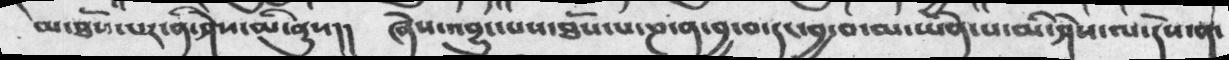མ་ཐོས་པར་ནི་ཤེས་མི་ནུས།།      ཞེས་འབྱུང་པས་ཐོས་པ་ཎ་ན་བྱ་བ་དང་བྱ་བ་མ་ཡིན་པ་མི་ཤེས་ལ་དེས་ན་
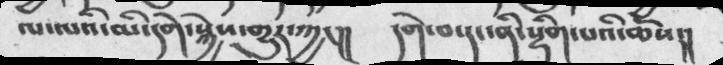ལ་ལའི་མི་དགེ་སྐྱེས་གྱུར་ཀྱང།།       དགེ་བ་དང་ནི་སྡིག་པའི་ཆོས།།
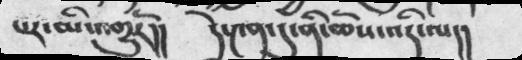པར་མི་འགྱུརོ།།    དེ་༤ན་དུ་ཆོས་འདི་ལ།།
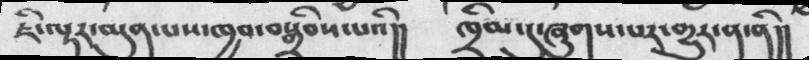ཇི་ལྟར་མུན་པས་ཁྱབ་བསྒྲིབས་པའི།།    ཁྲིམ་དུ་ཞུགས་པར་གྱུར་ན་ནི།།
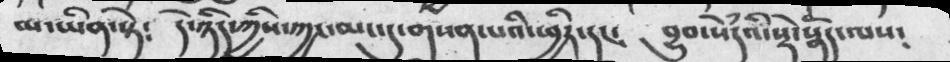མ་ཡིན་སྟེ༴   དེ་ཉིད་ཀྱིས་ཀྱང་མང་དུ་གསན་པའི་ཕྱིར་དང༴      བྱུབ་སེཾདའི་སྡེ་སྣོད་ལས༴
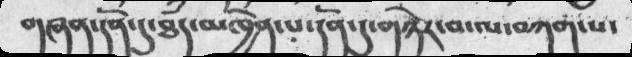གཞན་དོན་དུ་ཐཾད་མཁྱེན་པ་དོན་དུ་གཉེར་བ་བཀག་པཔ་
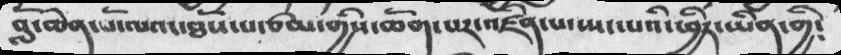བློ་ཆེན་པོ་ལའང་ཐོས་པ་ཙམ་གྱིས་ཆོག་པར་འཛིན་པ་ཡང་པའི་ཕྱིར་ཡིན༴
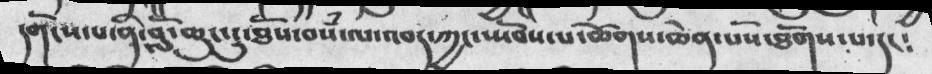དགོངས་པ་ནི་བློ་ཆུང་ངུ་ཐོས་བསཾ་ལ་འབད་ཀྱང་སྤོབས་པ་ཚེགས་ཆེན་པོས་ཐོགས་པ་དང༴
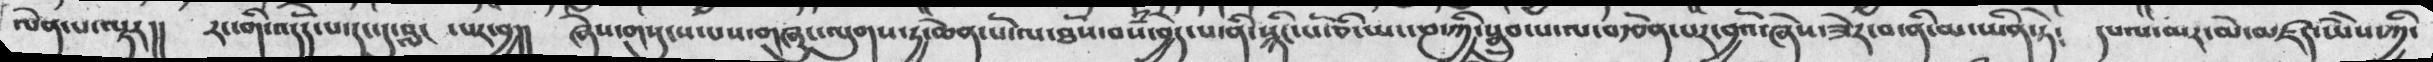ལེན་པ་ལྟར།།   རང་གི་འདོད་པ་དང་དུ་བླང་པར་བྱ།།  ཞེས་གསུངས་པས་གཞུང་ལུགས་རྒྱ་ཆེན་པོ་ལ་ཐོས་བསཾ་བྱེད་པ་ནི་སྙིང་པོ་ཅི་ཡང་ཎ་ཀྱི་སྒྲུབ་པ་ལ་བརྩོན་པར་བྱའོ་ཞེས་ཟེར་བ་ནི་མ་ཡིན་ཏེ༴   དཔལ་མར་མེ་མཛད་ཡེེས་ཀྱི་
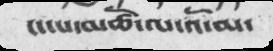ངང་པ་མཚོ་་ལ་འོ་མ་
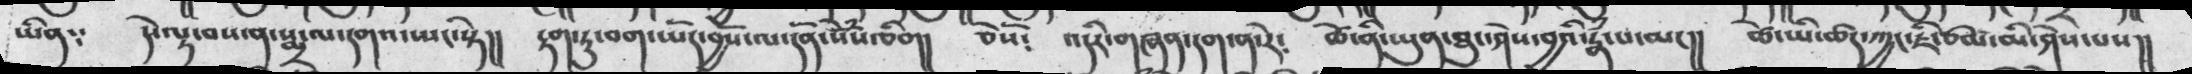ཡིན༴   དེ་ལྟ་བས་ན་སྨྲ་ལ་དགའ་ཡང་སྟེ།།  རྟག་ཏུ་བག་ཡོད་བྱོས་ལ་དོན་སེཾས་ཅིག།།   ཅེསོ༴   འདིར་གཞན་དག་ན་རེ༴   ཚེ་ནི་ཡུན་ཐུང་ཤེས་བྱའི་རྣཾ་པ་མང།།  ཚེ་ཡི་ཚད་ཀྱང་ཇི་ཙམ་མི་ཤེས་པས།།
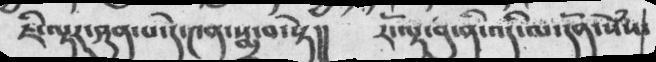ཇི་ལྟར་ཤུན་པ་དེ་༤ན་སྨྲ་བ་སྟེ།།    རོ་ལྟ་བུ་ནི་འདི་ལ་དོན་སེཾས་
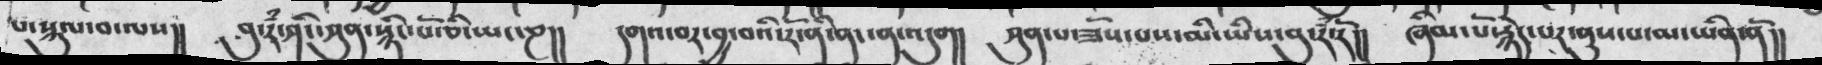པ་སྐུལ་བ་ལས།།   བུ་རཾ་ཤིང་ཤུན་སྙིང་པོ་ཅི་ཡང་ཎ།།   དགའ་བར་བྱ་བའི་རོ་ནི་ནང་ན་འདུག།   ཤུན་པ་ཟོས་པས་མི་ཡིས་བུ་རཾ་རོ།།   ཞིམ་པོ་རྙེད་པར་ནུས་པ་མ་ཡིན་ནོ།།
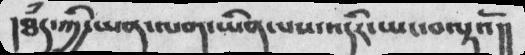།ཐཾད་ཀྱི་ཡན་ལག་ཡིན་པས་འདིིར་ཡང་བལྟའོ།།
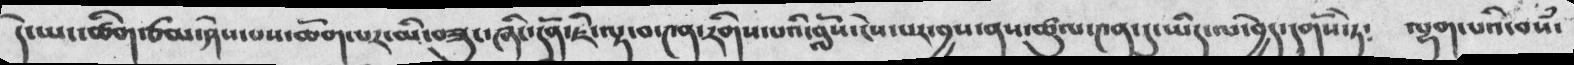དེ་ཡང་ཚིག་ཙམ་ཤེས་པས་ཆོག་པར་མི་བཟུང་ཞིང་དོན་ཇི་ལྟ་བ་༤ན་རིགས་པའི་བློས་ངེས་པར་བྱས་ནས་ཚུལ་༤ན་དུ་ཡིད་ལ་བྱེད་དགོས་ཏེ༴   ལྷག་པའི་བསཾ་
